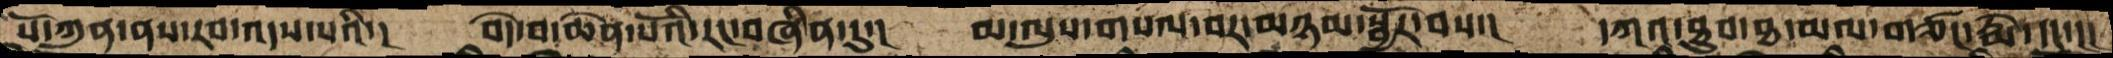པོ་ཀུན་ནས་རབ་འདས་པའི་།  བདེ་བ་ཆེན་པོའི་རང་བཞིན་དུ་།   མ་ལུས་གསལ་བར་མཉམ་སྦྱོར་བས་།   དཀའ་ཐུབ་ཐ་མལ་གཙང་རྨེ་དང་།།
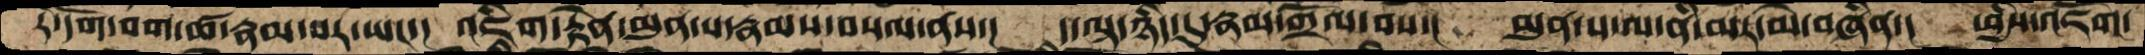རེ་དོག་བག་ཚ་རྣམ་པར་ཡང་།  འཇིག་རྟེན་མུན་པ་རྣམས་བསལ་ནས་།  ད་ལྟ་ཉིད་དུ་རྣམ་གྲོལ་བས་།  མུན་པ་ལ་ནི་མར་མེ་བཞིན་།  ཕྱིས་འཇོག་
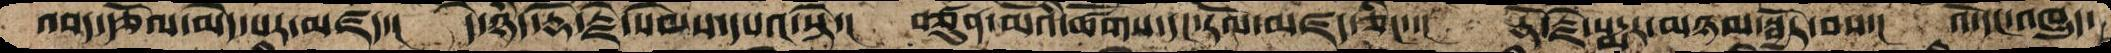འབད་རྩོལ་མེད་པར་མཛད་།   དེ་ཉིད་རྡོ་རྗེ་སེམས་དཔའ་སྟེ་།   བཙུན་མོའི་ཚོགས་དང་རོལ་མཛད་ཅིང་་།  རྡོ་རྗེ་པདྨར་མཉམ་སྦྱོར་བས་།  འོ་དང་འཁྱུད་
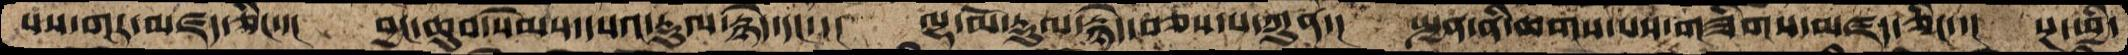པས་གར་མཛད་ཅིང་་།   བྱང་ཆུབ་སེམས་དཔའ་རྡུལ་རྙེད་དང་་།  ལྷ་མོ་རྡུལ་རྙེད་བཅས་པ་ཀུན་།  སྤྱན་ནི་ཆགས་པས་གཟིགས་མཛད་ཅིང་་།  སྔ་ཕྱི་
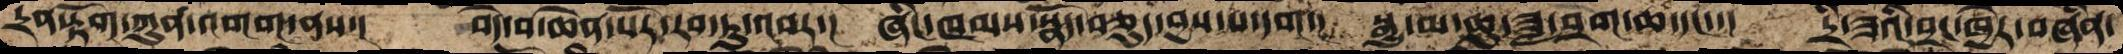དྲན་རྟོག་ཀུན་འགག་ནས་།  བདེ་བ་ཆེན་པོར་རབ་ཏུ་འབར་།  ཞིང་ཁམས་སྣོད་བཅུད་བྱས་པ་དག་།  སྒྱུ་མ་ཆུ་ཟླ་བྲག་ཆ་དང་་།  དྲི་ཟའི་བྲང་ཁྱེར་བཞིན་
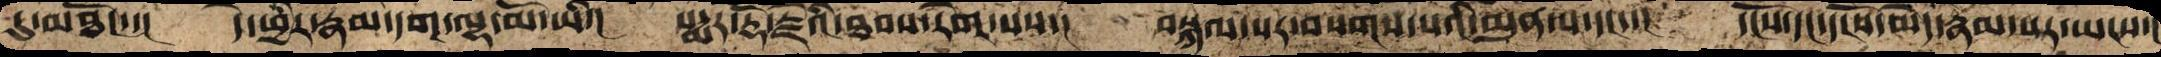དུ་མཐོང་་།   དེ་ཕྱིར་རྣམ་དག་ལྷ་མོ་ཡི་།   པདྨར་རྡོ་རྗེའི་ཐབས་རིག་པས་།   བསྐལ་པར་བསགས་པའི་མུན་པ་དང་་།  དངོས་དང་དངོས་མེད་རྣམ་པར་ཡངས་།
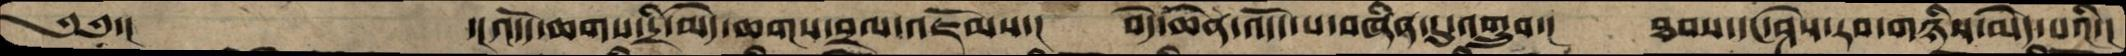༄༅་།          ་།འདོད་ཆགས་དྲི་མེད་ཆགས་བྲལ་འཇོམས་།  བདེ་ཆེན་འདོད་པ་བཞིན་དུ་འགྲུབ་།   ཐབས་དང་ཤེས་རབ་གཉིས་མེད་པའི་།
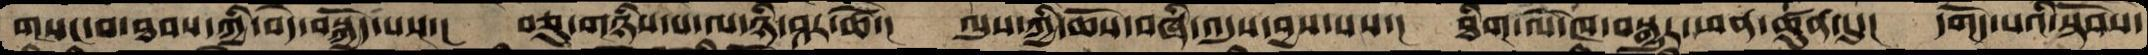གསང་བ་ཐབས་ཀྱི་བདེ་བསྐྱོད་པས་།  བཅུ་གཉིས་པ་ལ་ཉི་ཤར་ཚེ་།   ལུས་ཀྱི་ཆོས་བཞི་འདུས་བྱས་པས་།   ཐིག་ལེ་ཁ་བསྒྱུར་ཕན་ཚུན་དུ་།  དགོད་པའི་སྟོབས་
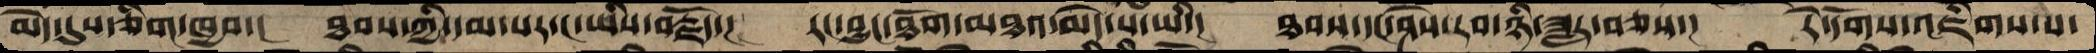མེད་དུས་ཅིག་ཁྱབ་།  ཐབས་ཀྱི་དམ་པར་ང་ཡིས་བརྗོད་།  རང་བྱུང་ཐོག་མཐའ་མེད་པ་ཡི་།   ཐབས་དང་ཤེས་རབ་ཉི་ཟླར་བཅས་།   རེ་དོགས་འཇིགས་པ་
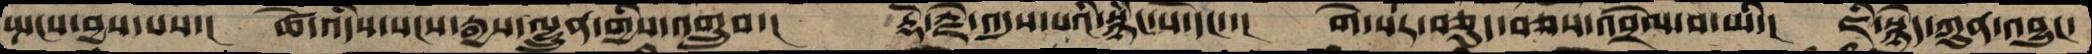སྤངས་བྱས་པས་།  ཚེ་འདིས་སངས་རྒྱས་ལྷུན་གྱིས་འགྲུབ་།     རྡོ་རྗེ་འདུས་པའི་སྙིང་པོ་དང་་།   གེ་སར་བཅུད་བཅས་འབྲེལ་བ་ཡི་།  ཇི་སྙེད་ཀུན་འབྱུང་
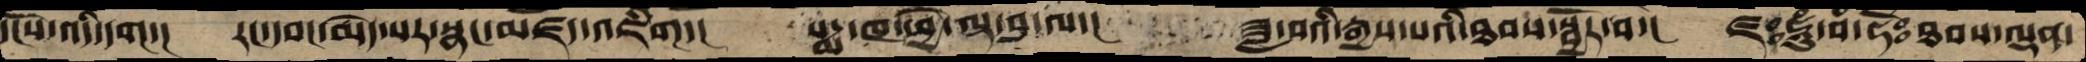དངོས་འདི་དག་།    རང་དབང་མེད་པར་སྣང་མཛད་འཇིག་།  པདྨ་ཁ་ཕྱེ་ལྟ་བུ་ལ་།     ཟླ་བའི་རྒྱས་པའི་ཐབས་སྦྱོར་བ་།  ཛཿཧཱུཾ་བཾ་ཧོཿཐབས་ལྡན་
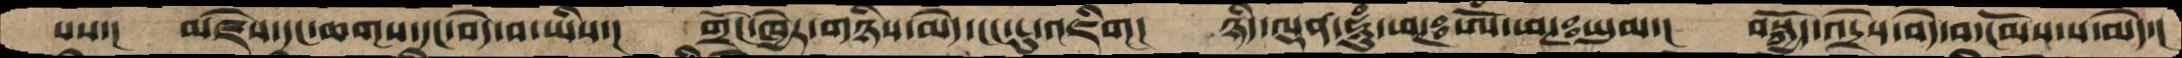པས་།   མཛེས་དང་ཆགས་དང་བདེ་བ་ཡིས་།  གྲོང་ཁྱེར་གཉིས་མེད་ངང་ངུ་འཇིག།  ཉིད་ལྡན་ཧཱུཾ་ཕཊ་ཨོཾ་ཕཊ་ཡུམ་།   བསྐྱོད་འདྲེས་བདེ་བ་ངོམས་པ་མེད་།
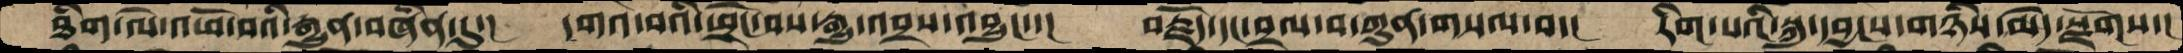ཐིག་ལེ་འཕོ་བའི་རྒྱུན་བཞིན་དུ་།   དགའ་བའི་ཕྲེང་བས་རྒྱུ་འབྲས་འབྱུང་་།  བརྗོད་དང་བྲལ་བ་ཀུན་གསལ་བ་།  རིག་པའི་སྐུ་དབྱངས་གཉིས་མེད་སྫོགས་།
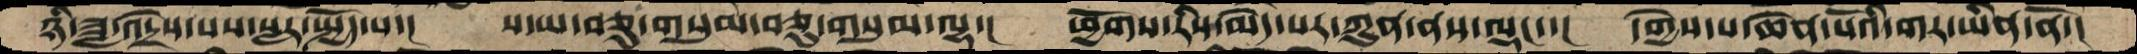ཉི་ཟླ་འདྲེས་པས་སླར་སྤྱོད་པ་།   ས་ཡ་བཅུ་གསུམ་བཅུ་གསུམ་ལྷ་།  ཕྱོགས་རིས་མེད་པར་ཀུན་ནས་ལྡང་་།  དགྱེས་པ་ཆེན་པོའི་གར་ཡིན་ནོ་།
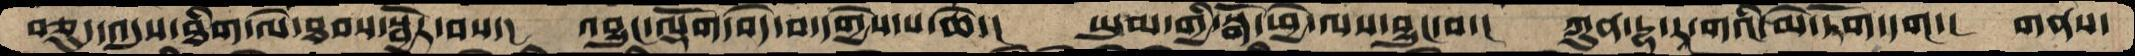བཅུད་འདུས་ཐིག་ལེ་ཐབས་སྦྱོར་བས་།   འབྱུང་ལྡོག་བདེ་བ་དགྱེས་པ་ཆེ་།   ཡུམ་གྱི་སྒོ་ཕྱེ་ལས་བྱུང་བ་།  ཀུན་དྷ་རཱ་གའི་མེ་ཏོག་དག་།  གནས་
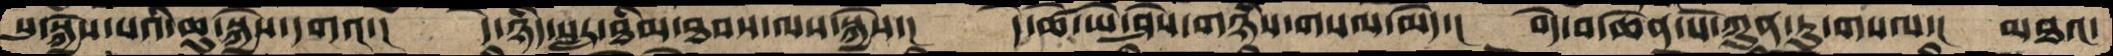སུ་སྐྱེས་པའི་ཆུ་སྐྱེས་དགའ་།  དེ་ཉིད་སླར་ཐིམ་ཐབས་ལས་སྐྱེས་།  དེ་ཚེ་ཡེ་ཤེས་གཉིས་གསལ་མེད་།   བདེ་བ་ཆེན་པོ་ཀུན་ཏུ་གསལ་།  མཐའ་
